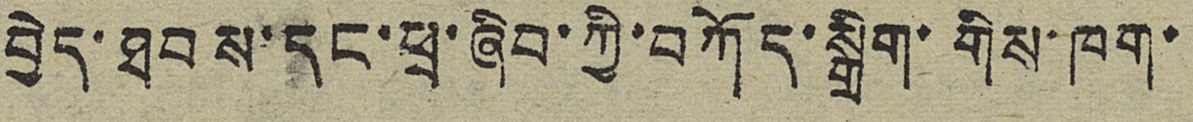བྱེད་ཐབས་དང་ཕྲ་ཞིབ་ཀྱི་བཀོད་སྒྲིག་གིས་ཁག་
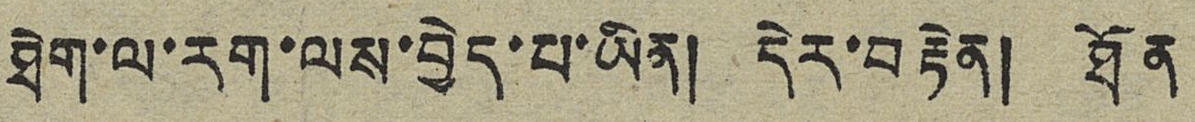ཐེག་ལ་རག་ལས་བྱེད་པ་ཡིན། དེར་བརྟེན། ཐོན
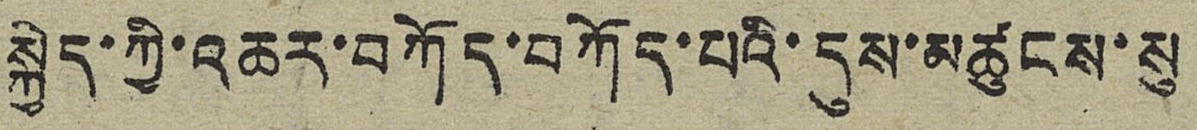སྐྱེད་ཀྱི་འཆར་བཀོད་བཀོད་པའི་དུས་མཚུངས་སུ
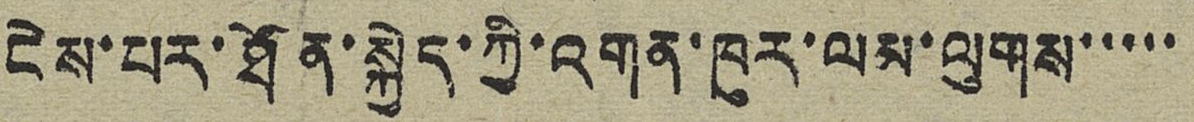ངེས་པར་ཐོན་སྐྱེད་ཀྱི་འགན་ཁུར་ལམ་ལུགས་་་་་
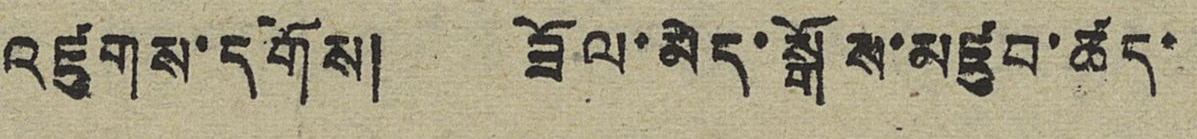འཛུགས་དགོས། ཟོལ་མེད་སྒོས་མཛུབ་ཚད་
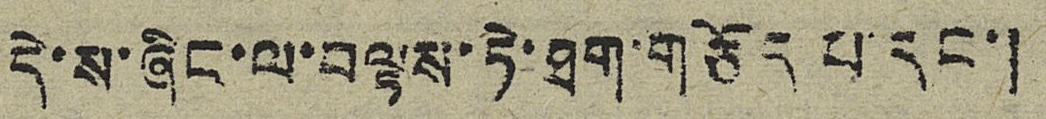དེ་ས་ཞིང་ལ་བལྟས་ཏེ་ཐག་གཅོད་པ་དང་།
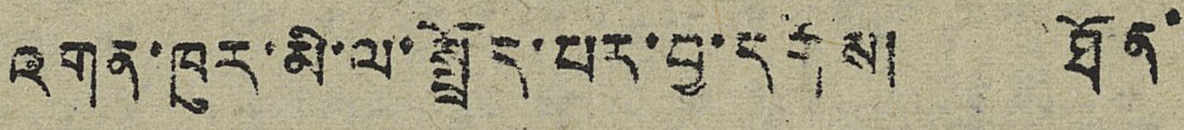འགན་ཁུར་མི་ལ་སྤྲོད་པར་བྱ་དགོས། ཐོན་
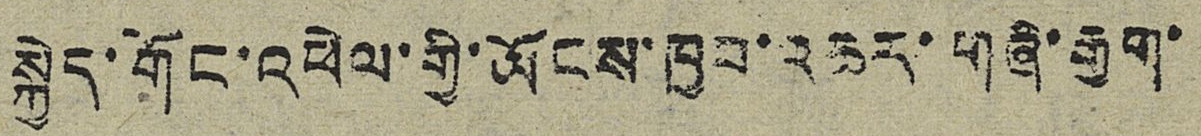སྐྱེད་གོང་འཕེལ་གྱི་ཡོངས་ཁྱབ་འཆར་གཞི་རྒྱག་
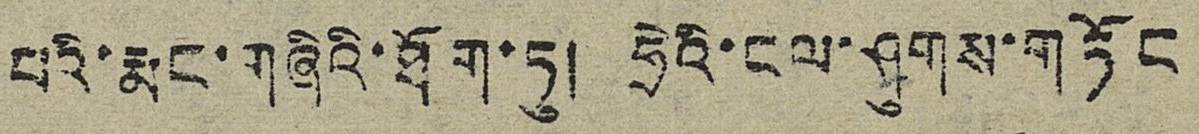པའི་རྨང་གཞིའི་ཐོག་ཏུ། ཧྲེའི་ངལ་ཤུགས་གཏོང
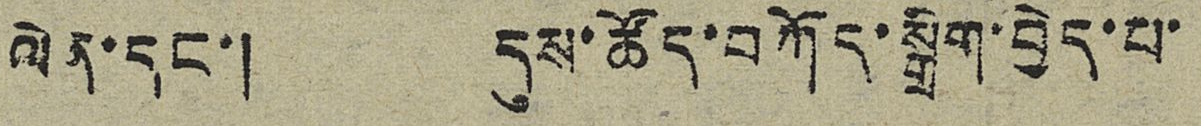ལེན་དང་། དུས་ཚོད་བཀོད་སྒྲིག་བྱེད་པ་
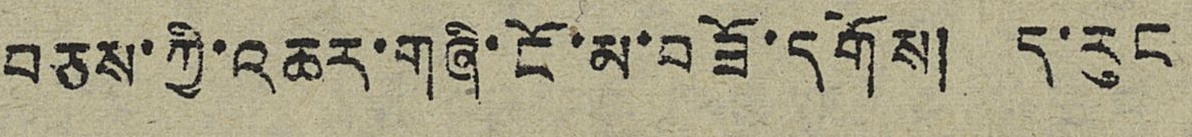བཅས་ཀྱི་འཆར་གཞི་ངོ་མ་བཟོ་དགོས། ད་རུང
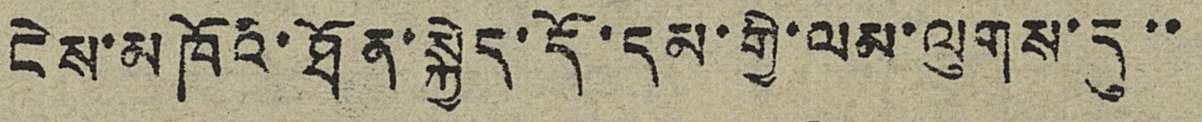ངེས་མཁོའི་ཐོན་སྐྱེད་དོ་དམ་གྱི་ལམ་ལུགས་དུ་་
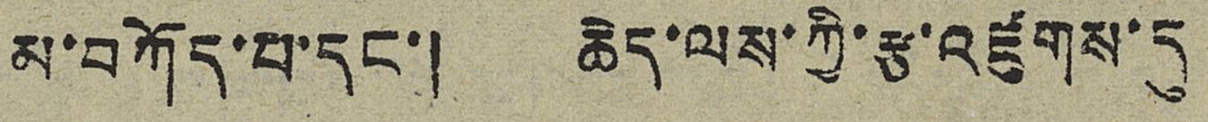མ་བཀོད་པ་དང་། ཆེད་ལས་ཀྱི་རྩ་འཛུགས་དུ
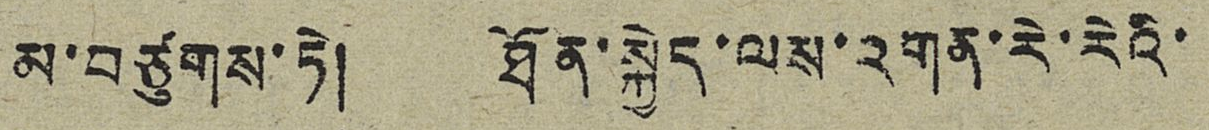མ་བཙུགས་ཏེ། ཐོན་སྐྱེད་ལས་འགན་རེ་རེའི་
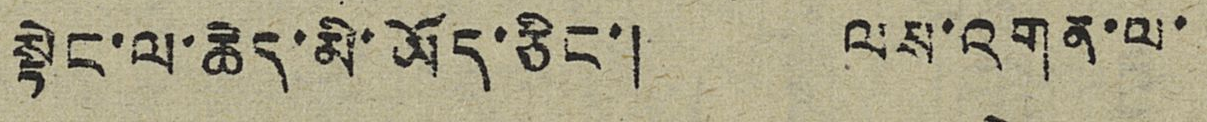སྟེང་ལ་ཆེད་མི་ཡོད་ཅིང་། ལས་འགན་ལ་
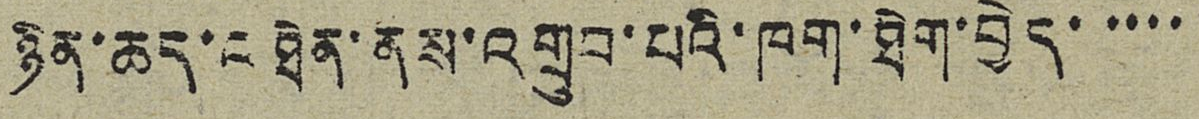ཉིན་ཆད་འཐེན་ནས་འགྲུབ་པའི་ཁག་ཐེག་བྱེད་་་་་
